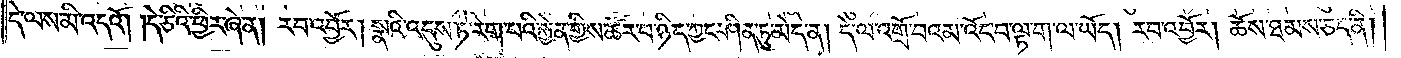དེ་ལས་མི་འདའོ། །དེ་ཅིའི་ཕྱིར་ཞེ་ན། རབ་འབྱོར། སྣའི་འདུས་ཏེ་རེག་པའི་རྐྱེན་གྱིས་ཚོར་བ་ཉིད་ཀྱང་ཤིན་ཏུ་མེད་ན། དེ་ལ་འགྲོ་བའམ་འོང་བ་ལྟ་ག་ལ་ཡོད། རབ་འབྱོར། ཆོས་ཐམས་ཅད་ནི།
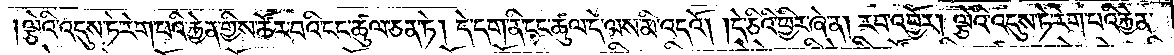ལྕེའི་འདུས་ཏེ་རེག་པའི་རྐྱེན་གྱིས་ཚོར་བའི་ངང་ཚུལ་ཅན་ཏེ། དེ་དག་ནི་ངང་ཚུལ་དེ་ལས་མི་འདའོ། །དེ་ཅིའི་ཕྱིར་ཞེ་ན། རབ་འབྱོར། ལྕེའི་འདུས་ཏེ་རེག་པའི་རྐྱེན་
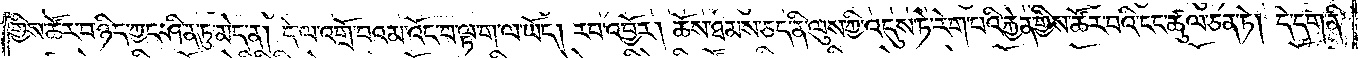གྱིས་ཚོར་བ་ཉིད་ཀྱང་ཤིན་ཏུ་མེད་ན། དེ་ལ་འགྲོ་བའམ་འོང་བ་ལྟ་ག་ལ་ཡོད། རབ་འབྱོར། ཆོས་ཐམས་ཅད་ནི་ལུས་ཀྱི་འདུས་ཏེ་རེག་པའི་རྐྱེན་གྱིས་ཚོར་བའི་ངང་ཚུལ་ཅན་ཏེ། དེ་དག་ནི་
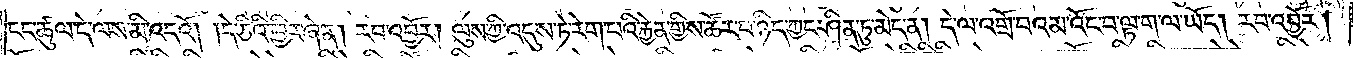ངང་ཚུལ་དེ་ལས་མི་འདའོ། །དེ་ཅིའི་ཕྱིར་ཞེ་ན། རབ་འབྱོར། ལུས་ཀྱི་འདུས་ཏེ་རེག་པའི་རྐྱེན་གྱིས་ཚོར་བ་ཉིད་ཀྱང་ཤིན་ཏུ་མེད་ན། དེ་ལ་འགྲོ་བའམ་འོང་བ་ལྟ་ག་ལ་ཡོད། རབ་འབྱོར།
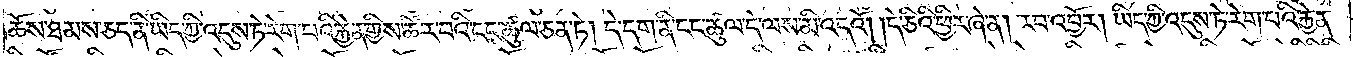ཆོས་ཐམས་ཅད་ནི་ཡིད་ཀྱི་འདུས་ཏེ་རེག་པའི་རྐྱེན་གྱིས་ཚོར་བའི་ངང་ཚུལ་ཅན་ཏེ། དེ་དག་ནི་ངང་ཚུལ་དེ་ལས་མི་འདའོ། །དེ་ཅིའི་ཕྱིར་ཞེ་ན། རབ་འབྱོར། ཡིད་ཀྱི་འདུས་ཏེ་རེག་པའི་རྐྱེན་
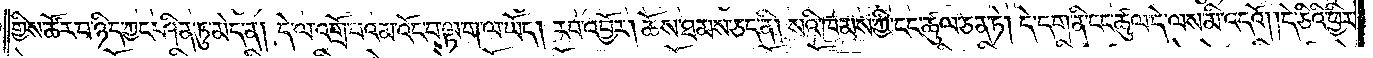གྱིས་ཚོར་བ་ཉིད་ཀྱང་ཤིན་ཏུ་མེད་ན། དེ་ལ་འགྲོ་བའམ་འོང་བ་ལྟ་ག་ལ་ཡོད། རབ་འབྱོར། ཆོས་ཐམས་ཅད་ནི། སའི་ཁམས་ཀྱི་ངང་ཚུལ་ཅན་ཏེ། དེ་དག་ནི་ངང་ཚུལ་དེ་ལས་མི་འདའོ། །དེ་ཅིའི་ཕྱིར་
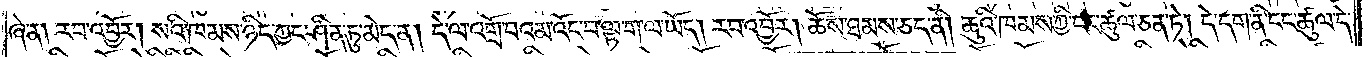ཞེ་ན། རབ་འབྱོར། སའི་ཁམས་ཉིད་ཀྱང་ཤིན་ཏུ་མེད་ན། དེ་ལ་འགྲོ་བའམ་འོང་བ་ལྟ་ག་ལ་ཡོད། རབ་འབྱོར། ཆོས་ཐམས་ཅད་ནི། ཆུའི་ཁམས་ཀྱི་ངང་ཚུལ་ཅན་ཏེ། དེ་དག་ནི་ངང་ཚུལ་དེ་
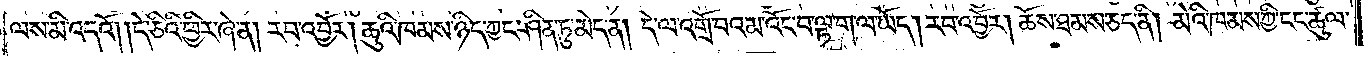ལས་མི་འདའོ། །དེ་ཅིའི་ཕྱིར་ཞེ་ན། རབ་འབྱོར། ཆུའི་ཁམས་ཉིད་ཀྱང་ཤིན་ཏུ་མེད་ན། དེ་ལ་འགྲོ་བའམ་འོང་བ་ལྟ་ག་ལ་ཡོད། རབ་འབྱོར། ཆོས་ཐམས་ཅད་ནི། མེའི་ཁམས་ཀྱི་ངང་ཚུལ་
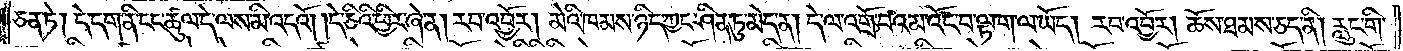ཅན་ཏེ། དེ་དག་ནི་ངང་ཚུལ་དེ་ལས་མི་འདའོ། །དེ་ཅིའི་ཕྱིར་ཞེ་ན། རབ་འབྱོར། མེའི་ཁམས་ཉིད་ཀྱང་ཤིན་ཏུ་མེད་ན། དེ་ལ་འགྲོ་བའམ་འོང་བ་ལྟ་ག་ལ་ཡོད། རབ་འབྱོར། ཆོས་ཐམས་ཅད་ནི། རླུང་གི་
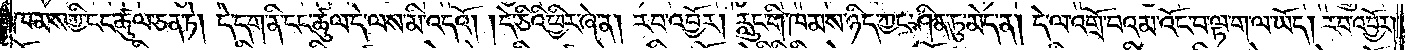ཁམས་ཀྱི་ངང་ཚུལ་ཏེ། དེ་དག་ནི་ངང་ཚུལ་དེ་ལས་མི་འདའོ། །དེ་ཅིའི་ཕྱིར་ཞེ་ན། རབ་འབྱོར། རླུང་གི་ཁམས་ཉིད་ཀྱང་ཤིན་ཏུ་མེད་ན། དེ་ལ་འགྲོ་བའམ་འོང་བ་ལྟ་ག་ལ་ཡོད། རབ་འབྱོར།
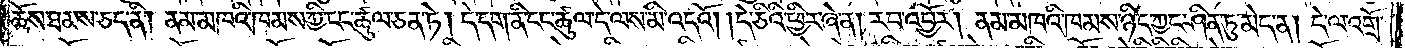ཆོས་ཐམས་ཅད་ནི། ནམ་མཁའི་ཁམས་ཀྱི་ངང་ཚུལ་ཅན་ཏེ། དེ་དག་ནི་ངང་ཚུལ་དེ་ལས་མི་འདའོ། །དེ་ཅིའི་ཕྱིར་ཞེ་ན། རབ་འབྱོར། ནམ་མཁའི་ཁམས་ཉིད་ཀྱང་ཤིན་ཏུ་མེད་ན། དེ་ལ་འགྲོ་
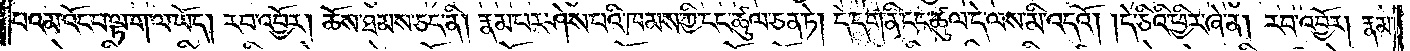པའམ་འོང་བ་ལྟ་ག་ལ་ཡོད། རབ་འབྱོར། ཆོས་ཐམས་ཅད་ནི། རྣམ་པར་ཤེས་པའི་ཁམས་ཀྱི་ངང་ཚུལ་ཅན་ཏེ། དེ་དག་ནི་ངང་ཚུལ་དེ་ལས་མི་འདའོ། །དེ་ཅིའི་ཕྱིར་ཞེ་ན། རབ་འབྱོར། རྣམ་
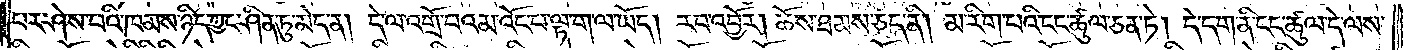པར་ཤེས་པའི་ཁམས་ཉིད་ཀྱང་ཤིན་ཏུ་མེད་ན། དེ་ལ་འགྲོ་བའམ་འོང་པ་ལྟ་ག་ལ་ཡོད། རབ་འབྱོར། ཆོས་ཐམས་ཅད་ནི། མ་རིག་པའི་ངང་ཚུལ་ཅན་ཏེ། དེ་དག་ནི་ངང་ཚུལ་དེ་ལས་
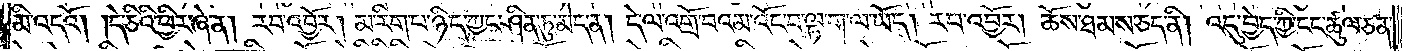མི་འདའོ། །དེ་ཅིའི་ཕྱིར་ཞེ་ན། རབ་འབྱོར། མ་རིག་པ་ཉིད་ཀྱང་ཤིན་ཏུ་མེད་ན། དེ་ལ་འགྲོ་བའམ་འོང་བ་ལྟ་ག་ལ་ཡོད། རབ་འབྱོར། ཆོས་ཐམས་ཅད་ནི། འདུ་བྱེད་ཀྱི་ངང་ཚུལ་ཅན་
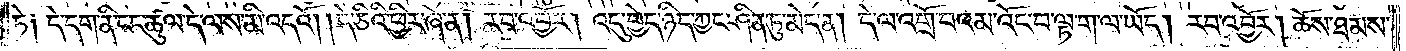ཏེ༑ དེ་དག་ནི་ངང་ཚུལ་དེ་ལས་མི་འདའོ། །དེ་ཅིའི་ཕྱིར་ཞེ་ན། རབ་འབྱོར། འདུ་བྱེད་ཉིད་ཀྱང་ཤིན་ཏུ་མེད་ན། དེ་ལ་འགྲོ་བའམ་འོང་བ་ལྟ་ག་ལ་ཡོད། རབ་འབྱོར། ཆོས་ཐམས་
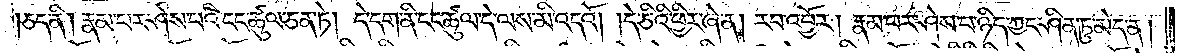ཅད་ནི། རྣམ་པར་ཤེས་པའི་ངང་ཚུལ་ཅན་ཏེ། དེ་དག་ནི་ངང་ཚུལ་དེ་ལས་མི་འདའོ། །དེ་ཅིའི་ཕྱིར་ཞེ་ན། རབ་འབྱོར། རྣམ་པར་ཤེས་པ་ཉིད་ཀྱང་ཤིན་ཏུ་མེད་ན།
